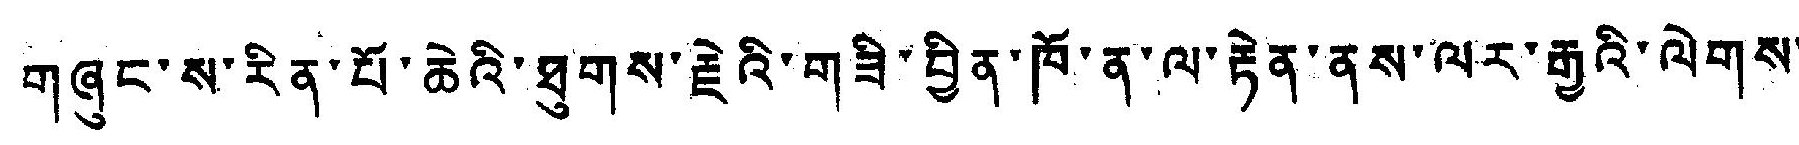གཞུང་ས་རིན་པོ་ཆེའི་ཐུགས་རྗེའི་གཟི་བྱིན་ཁོ་ན་ལ་རྟེན་ནས་ལར་རྒྱའི་ལེགས་
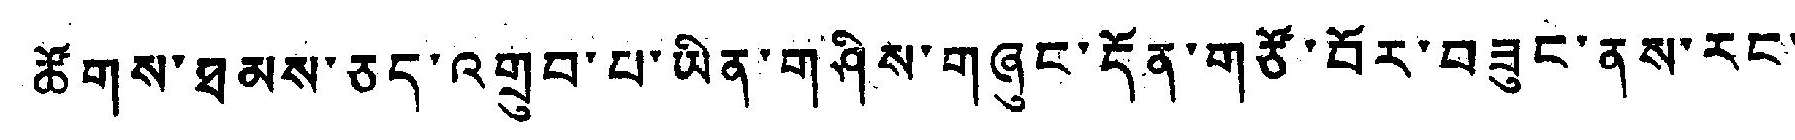ཚོགས་ཐམས་ཅད་འགྲུབ་པ་ཡིན་གཤིས་གཞུང་དོན་གཙོ་བོར་བཟུང་ནས་རང་
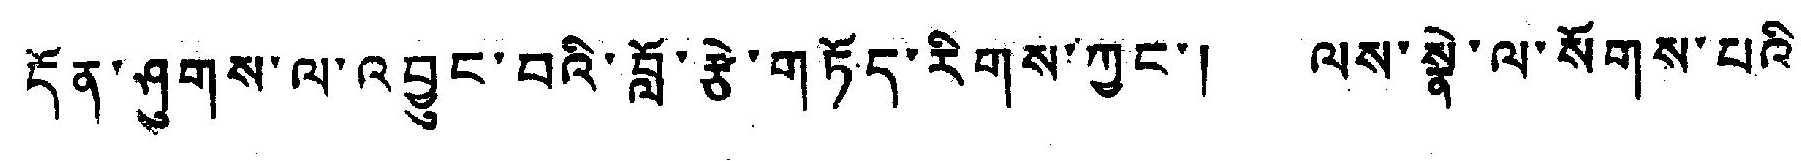དོན་ཤུགས་ལ་འབྱུང་བའི་བློ་རྩེ་གཏོད་རིགས་ཀྱང་། ལས་སྣེ་ལ་སོགས་པའི་
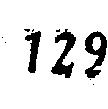128
